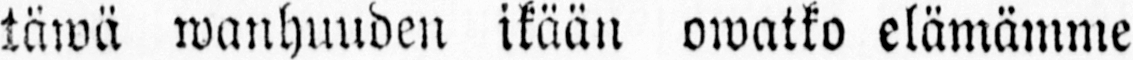täwä wanhuuden ikään owatko elämämme
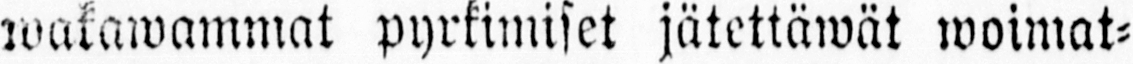wakawammat pyrkimiset jätettäwät woimat-
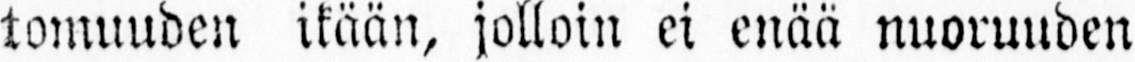tomuuden ikään, jolloin ei enää nuoruuden
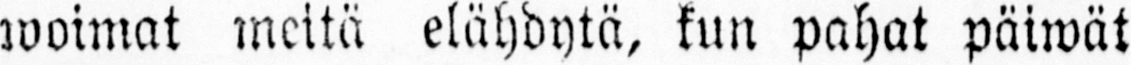woimat meitä elähdytä, kun pahat päiwät
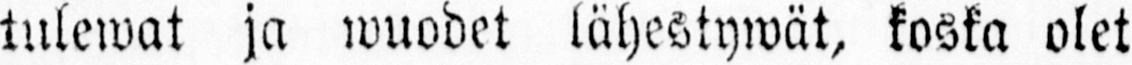tulewat ja wuodet lähestywät, koska olet
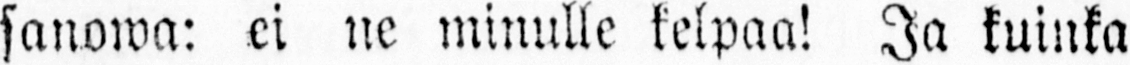sanowa: ei ne minulle kelpaa! Ja kuinka
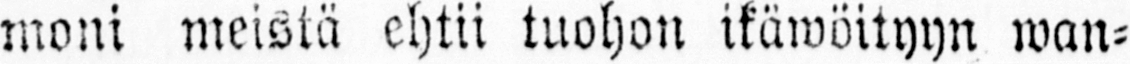moni meistä ehtii tuohon ikäwöityyn wan-
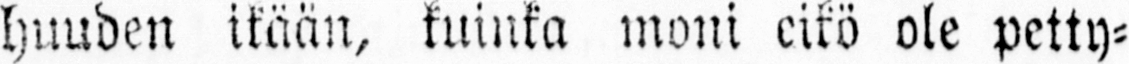huuden ikään, kuinka moni eikö ole petty-
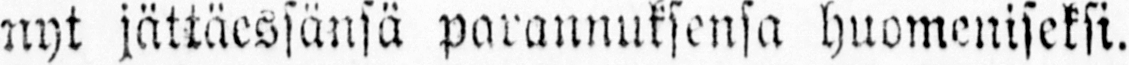nyt jättäessänsä parannuksensa huomeniseksi.
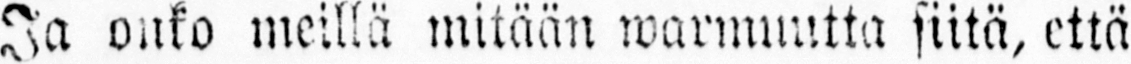Ja onko meillä mitään warmuutta siitä, että
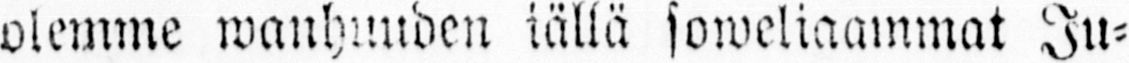olemme wanhuuden iällä soweliaammat Ju-
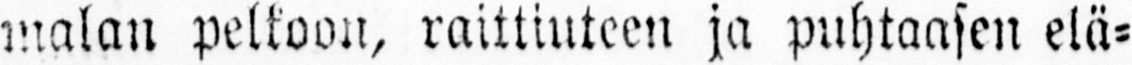malan pelkoon, raittiuteen ja puhtaasen elä-
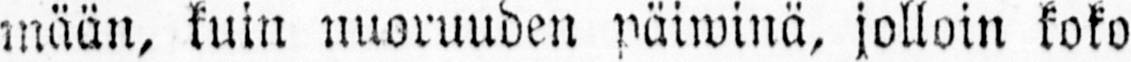mään, kuin nuoruuden päiwinä, jolloin koko
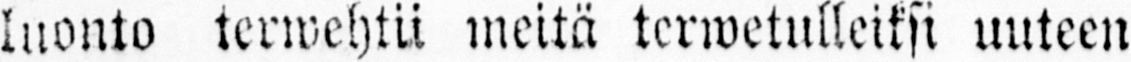luonto terwehtii meitä terwetulleiksi uuteen
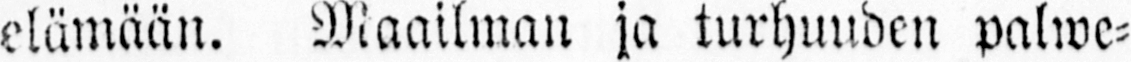elämään. Maailman ja turhuuden palwe-
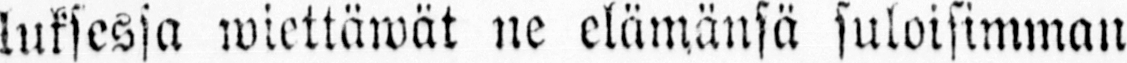luksessa wiettäwät ne elämänsä suloisimman
